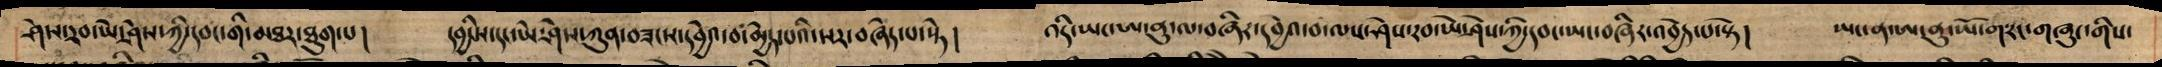ཤེས་རབ་ཡེ་ཤེས་ཀྱི་དབང་གི་མཐར་ཐུག་པ། དབྱིངས་དང་ཡེ་ཤེས་ཀུན་བཟང་ར་དབྱེའ་བ་མྱེད་པའི་སར་བཞེད་པ་སྟེ། འདི་ཡང་ཨ ནུ་ལ་བཞིར་དབྱེའ་བ་ལས་ཤེས་རབ་ཡེ་ཤེས་ཀྱི་དབང་ཡང་བཞིར་འབྱེད་པ་སྟེ། ཡང་ན་ཨ་ནུ་ཡོ་ག་རང་གཞུང་གིས་
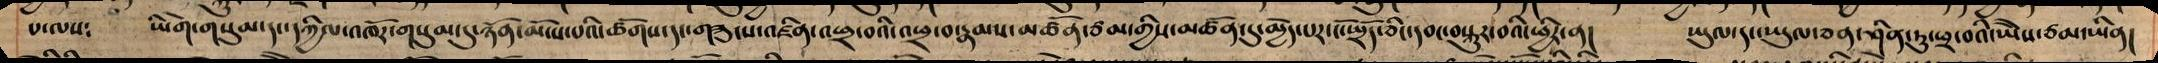པ་ལས༴ ཡིགེ་གསུམ་དཀྱིལ་འཁོར་གསུམ་དུ་ཉོན་མོངས་པའི་ཚོགས་དང་གཟུགས་འཛིན་འཕྲ་བའི་འཕྲ་བ་རྣམས་མཚོན་ཙམ་གྱིས་མཚོན་དུ་མྱེད་པར་སྤྲོད་ཅིང་དབང་བསྐུར་བའི་ཕྱིར་ན། ཡུལ་དང་ཡུལ་ཅན་ཤིན་ཏུ་ཕྲ་བའི་ཡཻས་ཙམ་ཡིན།
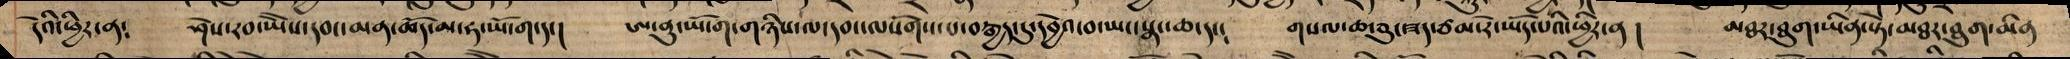དེའི་ཕྱིར་ན༴ ཤེས་རབ་ཡཻས་དབང་མན་ཆོད་མ་ཧ་ཡོ་ག་དང། ཨ་ནུ་ཡོ་ག་གཉིས་ལ་དབང་ལསོགས་པ་བརྒྱད་དུ་དབྱེའ་བ་ཡང་སྣང་ཆ་དང། གསལ་ཆ་ཅུང་ཟད་ཙམ་རེ་ཡོད་པའི་ཕྱིར་ན། མཐར་ཐུག་ཡིན་སྟེ་མཐར་ཐུག་ནིན
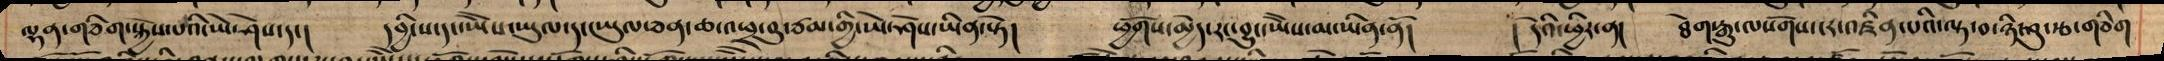ལྷན་གཅིག་སྐྱེས་པའི་ཡེ་ཤེས་དང། དབྱིངས་དང་ཡཻས་ཡུལ་དང་ཡུལ་ཅན་ཆ་འཕྲན་བུ་ཙམ་གྱི་ཡེ་ཤེས་ཡིན་སྟེ། ཕྱོགས་མྱེད་རང་བྱུང་ཡཻས་མ་ཡིན་ནོ། ། དེའི་ཕྱིར་ན། ཐེག་རྒྱུ་ལསོགས་ངར་འཛིན་པའི་ལྟ་བ་ཉི་ཤུ་རྩ་གཅིག
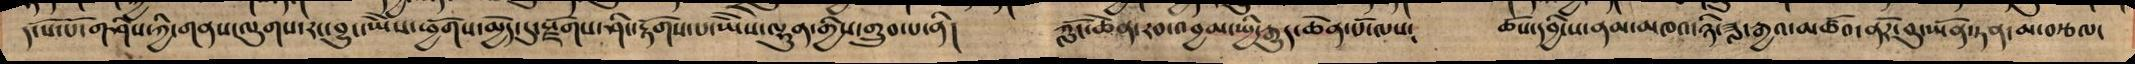དངོས་པོ་གཤིས་ཀྱི་གནས་ལུགས་རང་བྱུང་ཡཻས་ཕྱོགས་མྱེད་དུ་སྫོགས་ཤིང་རྟོགས་པ་ཡཻས་ལྷུན་གྱིས་གྲུབ་པ་ནི། ཀློང་ཆེན་རབ་འབྱམ་སྤྱི་རྒྱུད་ཆེན་པོ་ལས༴ ཆོས་དབྱིངས་ནམ་མཁའ་ཉི་ཟླ་རྒྱའ་མཚོའ་ནོར་བུ་ཡོན་ཏན་མ་བརྩལ་
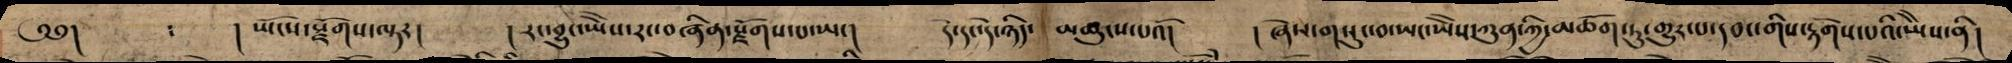༄༅། ། ཡོངས་སྫོགས་ལྟར། །རང་བྱུང་ཡཻས་རང་བཞིན་སྫོགས་པ་ཡང། དེ་དང་དེ་ཉིད་ མཚུངས་པའོ། །ཞེས་གསུང་བ་ཡང་ཡཻས་ཀུན་ཀྱི་མཆོག་ཏུ་གྱུར་པ་དབང་གིས་རྟོགས་པའི་ཡཻས་ནི།
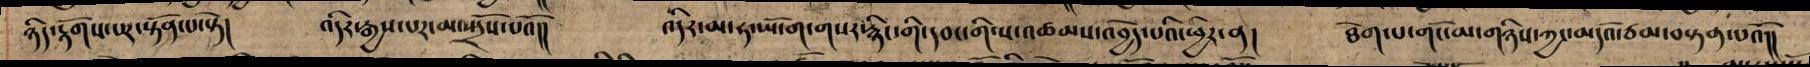ཉིད་རྟོགས་པར་སྟོན་པ་སྟེ། འདིར་རྒྱས་པར་མ་སྤྲོས་པའོ།། འདིར་མ་ཧ་ཡོ་ག་གསར་རྙིང་གི་དབང་གི་ས་འཚམས་འབྱེད་པའི་ཕྱིར་ན། ཐེག་པ་གོང་མ་གཉིས་ཀྱང་མདོའ་ཙམ་བསྟན་པའོ།།
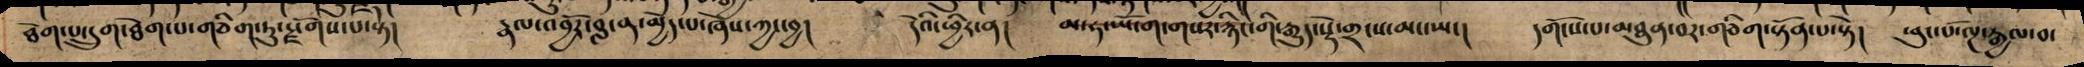ཐེག་པ་དྲུག་ཐེག་པ་གཅིག་ཏུ་སྫོགས་པ་སྟེ། རྣལ་འབྱོར་བླ་ན་མྱེད་པ་ཞེས་ཀྱང་བྱ། དེའི་ཕྱིར་ན། མ་ཧ་ཡོ་ག་གསར་རྙིང་གི་རྒྱུད་སྡེ་གྲངས་མང་ཡང། དགོངས་པ་མཐུན་བར་གཅིག་སྟོན་པ་སྟེ། ཕུང་པོ་ལྔ་རྒྱལ་བ་
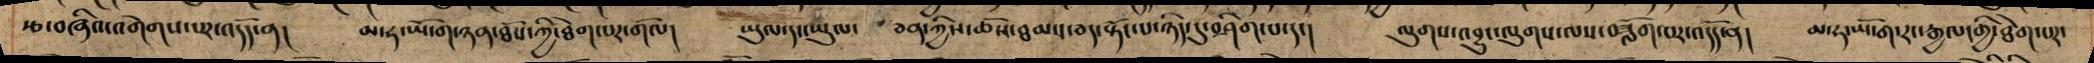རྩ་བཞིའ་འགེགས་པར་འདོད་ན། མ་ཧ་ཡོ་ག་ཉན་ཐོས་ཀྱི་ཐེག་པར་གོལ། ཡུལ་དང་ཡུལ་ ཅན་ཀྱིས་ཆོས་ཐམས་ཅད་སྟོང་པ་ཉིད་དུ་བཤིག་པ་དང། ལུགས་འབྱུང་ལུགས་ལས་བཟློག་པར་འདོད་ན། མ་ཧ་ཡོ་ག་རང་རྒྱལ་གྱི་ཐེག་པར་
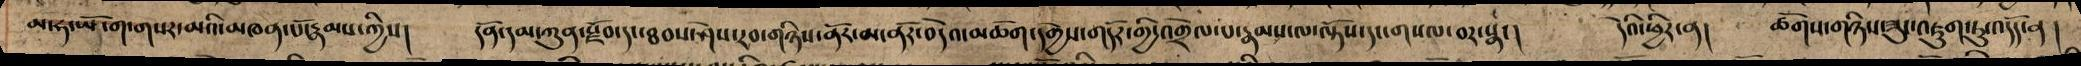མ་ཧ་ཡོ་ག་གསར་མའི་མཁན་པོ་རྣམས་ཀྱིས། དོན་དམ་ཀུན་སྫོབ་དང་ཐབས་ཤེས་རབ་གཉིས་ནོར་མ་ནོར་བདེའ་མཆོག་དགྱེས་གདོར་གྱི་འགྲེལ་པ་རྣམས་ལ་ལྟོས་དང་གསལ་བར་སྣང། དེའི་ཕྱིར་ན། ཚོགས་གཉིས་ཟུང་འཇུག་ཏུ་འདོད་ན །
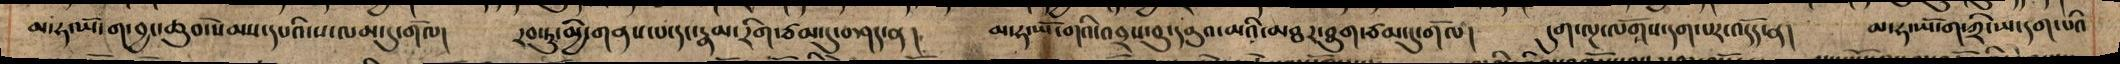མ་ཧ་ཡོ་ག་བྱང་ཆུབ་སེམས་དཔའི་ས་ལམ་དུ་གོལ། རབ་ཏུ་མྱི་གནས་པ་དང་རྣམ་རིག་ཙམ་དུ་བཤད་ན། མ་ཧ་ཡོ་གའི་འབྲས་བུ་དབུའ་མའི་མཐར་ཐུག་ཙམ་དུ་གོལ། དུག་ལྔ་ལོགས་དག་པར་འདོད་ན། མ་ཧ་ཡོ་ག་ཀྲི་ཡ་དག་པའི
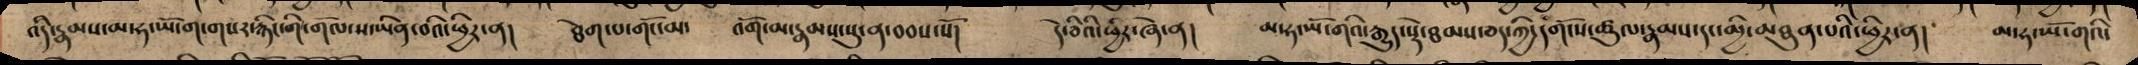འདི་རྣམས་མ་ཧ་ཡོ་ག་གསར་རྙིང་གི་གོལ་ས་ཡིན་བའི་ཕྱིར་ན། ཐེག་པ་གོང་མ་ འོག་མ་རྣམས་སུ་ན་བབས་སོ། དེ་ཅིའི་ཕྱིར་ཞེ་ན། མ་ཧ་ཡོ་གའི་རྒྱུད་སྡེ་ཐམས་ཅད་ཀྱི་དགོངས་ཚུལ་རྣམས་དང་མྱི་མཐུན་པའི་ཕྱིར་ན། མ་ཧ་ཡོ་གའི་
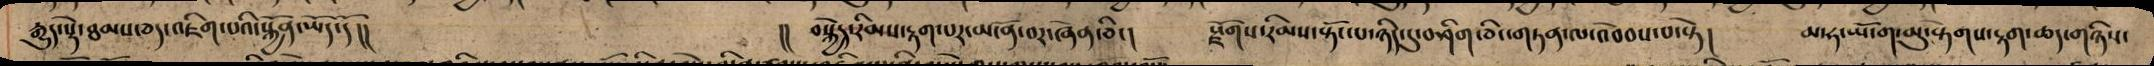རྒྱུད་སྡེ་ཐམས་ཅད་འཇིག་པའི་སྐྱོན་ཡོད་དོ།། །། བསྐྱེད་རིམས་རྟག་པར་མངོན་བར་ཞེན་ཅིང། སྫོགས་རིམས་སྟོང་པ་ཉིད་དུ་བཤིག་ཅིང་གཏན་ལ་འབེབས་པ་སྟེ། མ་ཧ་ཡོ་ག་མུ་སྟེགས་རྟག་ཆད་གཉིས་
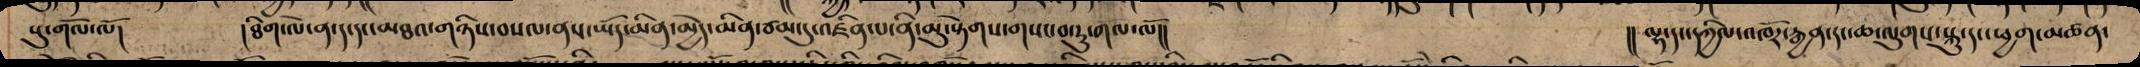སུ་གོལ་ལོ། །ཐིག་ལེ་ན་ད་དང་མཐའ་གཉིས་བསལ་ནས་ཡོད་མིན་མྱེད་མིན་ཙམ་དུ་འཛིན་པ་ནི་མུ་སྟེགས་གསང་བ་རུ་གལ་ལོ།། །། ལྷ་དང་དཀྱིལ་འཁོར་རྒྱན་དང་ཆ་ལུགས་སྐུ་དང་ཕྱག་མཚན་
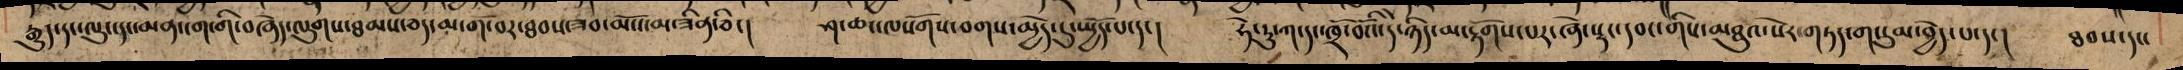རྒྱུད་དང་ལུང་དང་མན་ངག་གི་བཞེད་ལུགས་ཐམས་ཅད་མ་གོ་བར་ཐབས་ཟབ་མོས་མ་ཟིན་ཅིང། ཤ་ཆང་ལསོགས་བགས་མྱེད་དུ་སྤྱོད་པ་དང། ཧེ་རུ་ཀ་དང་ཁྲོ་བོའི་དེ་ཉིད་མ་རྟོགས་པར་ཞེ་སྡང་དབང་གིས་མཐུའ་སེར་གཏད་གསུམ་བྱེད་པ་དང། ཐབས་དང་
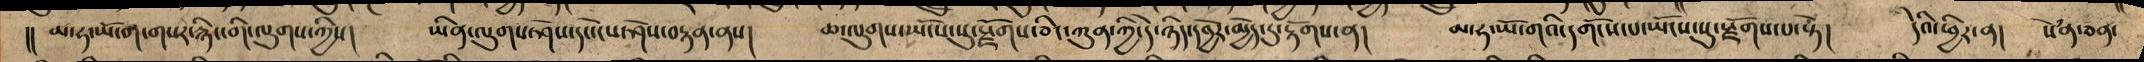།། མ་ཧ་ཡོ་ག་གསར་རྙིང་གི་ལུགས་ཀྱིས། ཡིན་ལུགས་ཤེས་དང་ངེས་ཤེས་བརྟན་ནས། ཆ་ལུགས་ཡོངས་སུ་སྫོགས་ཅིང་ཀུན་ཀྱི་དེ་ཉིད་དབྱེར་མྱེད་དུ་རྟོགས་ན། མ་ཧ་ཡོ་གའི་དགོངས་པ་ཡོངས་སུ་སྫོགས་པ་སྟེ། དེའི་ཕྱིར་ན། སེཾན་ཅན་
